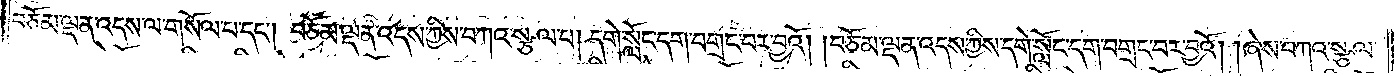བཅོམ་ལྡན་འདས་ལ་གསོལ་པ་དང༌། བཅོམ་ལྡན་འདས་ཀྱིས་བཀའ་སྩལ་པ། དགེ་སློང་དག་བགྲང་བར་བྱའོ། །བཅོམ་ལྡན་འདས་ཀྱིས་དགེ་སློང་དག་བགྲང་བར་བྱའོ། །ཞེས་བཀའ་སྩལ་
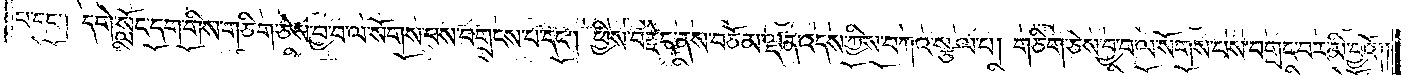པ་དང༌། དགེ་སློང་དག་གིས་གཅིག་ཅེས་བྱ་བ་ལ་སོགས་པས་བགྲངས་པ་དང༌། ཕྱིས་བརྗེད་ནས་བཅོམ་ལྡན་འདས་ཀྱིས་བཀའ་སྩལ་པ། གཅིག་ཅེས་བྱ་བ་ལ་སོགས་པས་བགྲང་བར་མི་བྱའོ།
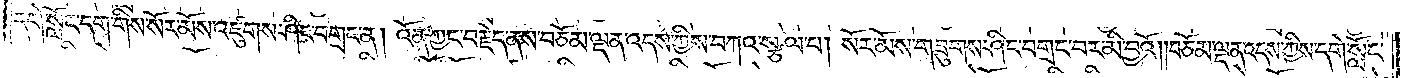དགེ་སློང་དག་གིས་སོར་མོས་འཛུགས་ཤིང་བགྲང་ན། འོན་ཀྱང་བརྗེད་ནས་བཅོམ་ལྡན་འདས་ཀྱིས་བཀའ་སྩལ་པ། སོར་མོས་གཟུགས་ཤིང་བགྲང་བར་མི་བྱའོ། །བཅོམ་ལྡན་འདས་ཀྱིས་དགེ་སློང་
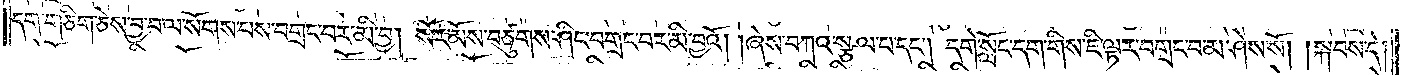དག་གཅིག་ཅེས་བྱ་བ་ལ་སོགས་པས་བགྲང་བར་མི་བྱ། སོར་མོས་བཙུགས་ཤིང་བགྲང་བར་མི་བྱའོ། །ཞེས་བཀའ་སྩལ་པ་དང༌། དགེ་སློང་དག་གིས་ཇི་ལྟར་བགྲང་བ་མ་ཤེས་སོ། །སྐབས་དེ།
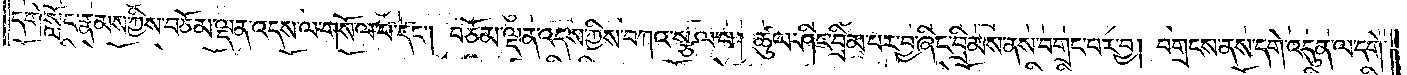དགེ་སློང་རྣམས་ཀྱིས་བཅོམ་ལྡན་འདས་ལ་གསོལ་པ་དང༌། བཅོམ་ལྡན་འདས་ཀྱིས་བཀའ་སྩལ་པ། ཚུལ་ཤིང་བྲིམ་པར་བྱ་ཞིང་བྲིམས་ནས་བགྲང་བར་བྱ། བགྲངས་ནས་དགེ་འདུན་ལ་དགེ་
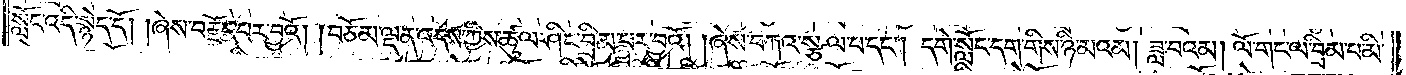སློང་འདི་སྙེད་དོ། །ཞེས་བརྗོད་པར་བྱའོ། །བཅོམ་ལྡན་འདས་ཀྱིས་ཚུལ་ཤིང་བྲིམ་པར་བྱའོ། །ཞེས་བཀའ་སྩལ་པ་དང༌། དགེ་སློང་དག་གིས་ཉི་མའམ། ཟླ་བའམ། ལོ་གང་ལ་བྲིམ་པ་མི་
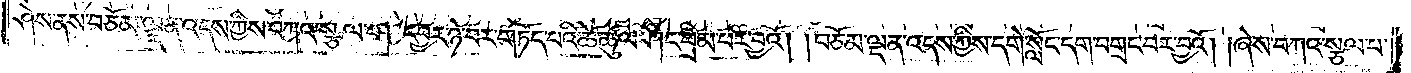ཤེས་ནས་བཅོམ་ལྡན་འདས་ཀྱིས་བཀའ་སྩལ་པ། དབྱར་ཉེ་བར་གཏོད་པའི་ཚེ་ཚུལ་ཤིང་བྲིམ་པར་བྱའོ། །བཅོམ་ལྡན་འདས་ཀྱིས་དགེ་སློང་དག་བགྲང་བར་བྱའོ། །ཞེས་བཀའ་སྩལ་པ་
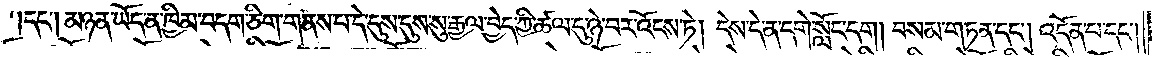དང༌། མཉན་ཡོད་ན་ཁྱིམ་བདག་ཅིག་གནས་པ་དེ་དུས་དུས་སུ་རྒྱལ་བྱེད་ཀྱི་ཚལ་དུ་ཉེ་བར་འོངས་ཏེ། དེས་དེ་ན་དགེ་སློང་དག། བསམ་གཏན་དང༌། འདོན་པ་དང༌།
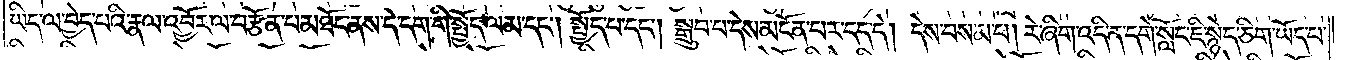ཡིད་ལ་བྱེད་པའི་རྣལ་འབྱོར་ལ་བརྩོན་པ་མཐོང་ནས་དེ་དག་གི་སྤྱོད་ལམ་དང༌། སྤྱོད་པ་དང༌། སྒྲུབ་པ་དེས་མངོན་པར་དད་དེ། དེས་བསམ་པ། རེ་ཞིག་འདི་ན་དགེ་སློང་ཇི་སྙེད་ཅིག་ཡོད་པ་
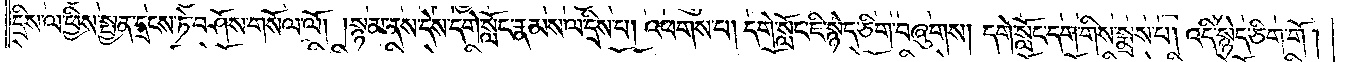དྲིས་ལ་ཕྱིས་སྤྱན་དྲངས་ཏེ་བཤོས་གསོལ་ལོ། །སྙམ་ནས་དེས་དགེ་སློང་རྣམས་ལ་དྲིས་པ། འཕགས་པ། དགེ་སློང་ཇི་སྙེད་ཅིག་བཞུགས། དགེ་སློང་དག་གིས་སྨྲས་པ། འདི་སྙེད་ཅིག་གོ།
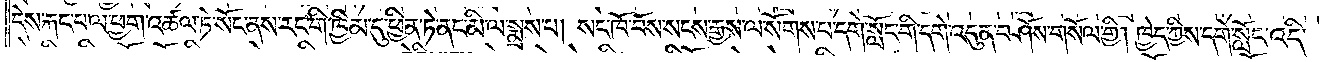དེས་རྐང་པ་ལ་ཕྱག་འཚལ་ཏེ་སོང་ནས་རང་གི་ཁྱིམ་དུ་ཕྱིན་ཏེ་ནང་མི་ལ་སྨྲས་པ། སང་ཁོ་བོས་སངས་རྒྱས་ལ་སོགས་པ་དགེ་སློང་གི་དགེ་འདུན་བཤོས་གསོལ་གྱི། ཁྱེད་ཀྱིས་དགེ་སློང་འདི་
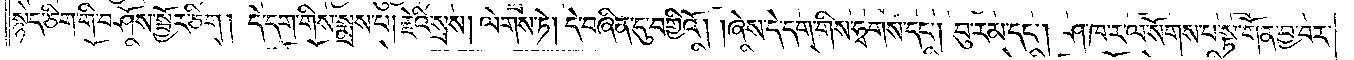སྙེད་ཅིག་གི་བཤོས་སྦྱོར་ཅིག །དེ་དག་གིས་སྨྲས་པ། རྗེའི་སྲས། ལེགས་ཏེ། དེ་བཞིན་དུ་བགྱིའོ། །ཞེས་དེ་དག་གིས་ཧྭགས་དང༌། བུ་རམ་དང༌། ཤ་ཁ་ར་ལ་སོགས་པ་སྟ་གོན་བྱ་བར་
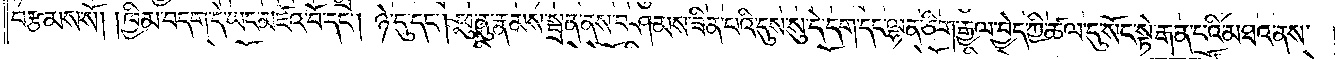བརྩམས་སོ། ཁྱིམ་བདག་དེ་ཡང་མཛའ་བོ་དང༌། ཉེ་དུ་དང༌། ཕུ་ནུ་རྣམས་སྦྲན་ནས་བཤམས་ཟིན་པའི་དུས་སུ་དེ་དག་དང་ལྷན་ཅིག་རྒྱལ་བྱེད་ཀྱི་ཚལ་དུ་སོང་སྟེ་རྒན་པའི་མཐའ་ནས་
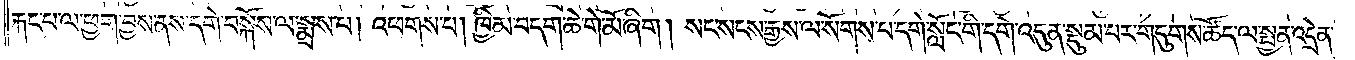རྐང་པ་ལ་ཕྱག་བྱས་ནས་དགེ་བསྐོས་ལ་སྨྲས་པ། འཕགས་པ། ཁྱིམ་བདག་ཆེ་གེ་མོ་ཞིག །སང་སངས་རྒྱས་ལ་སོགས་པ་དགེ་སློང་གི་དགེ་འདུན་སྡུམ་པར་གདུགས་ཚོད་ལ་སྤྱན་འདྲེན་
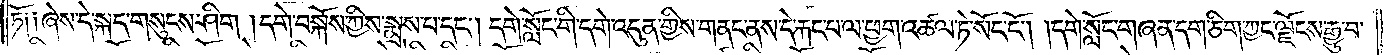ཏོ༑ ༑ཞེས་དེ་སྐད་གསུངས་ཤིག །དགེ་བསྐོས་ཀྱིས་སྨྲས་པ་དང༌། དགེ་སློང་གི་དགེ་འདུན་གྱིས་གནང་ནས་དེ་རྐང་པ་ལ་ཕྱག་འཚལ་ཏེ་སོང་ངོ༌། །དགེ་སློང་གཞན་དག་ཅིག་ཀྱང་ལྗོངས་རྒྱུ་བ་
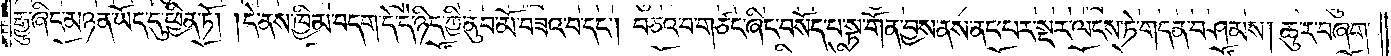རྒྱུ་ཞིང་མཉན་ཡོད་དུ་ཕྱིན་ཏོ། །དེ་ནས་ཁྱིམ་བདག་དེ་དེ་ཉིད་ཀྱི་ནུབ་མོ་བཟའ་བ་དང༌། བཅའ་བ་གཙང་ཞིང་བསོད་པ་སྟ་གོན་བྱས་ནས་ནང་པར་སྔར་ལངས་ཏེ་གདན་བཤམས། ཆུ་ར་བཞག་
